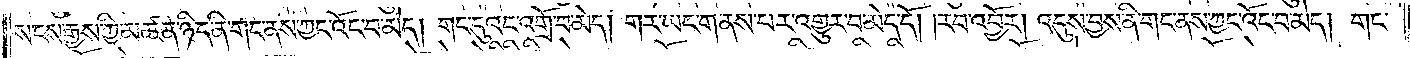སངས་རྒྱས་ཀྱི་མཚན་ཉིད་ནི་གང་ནས་ཀྱང་འོང་བ་མེད། གང་དུའང་འགྲོ་བ་མེད། གར་ཡང་གནས་པར་འགྱུར་བ་མེད་དོ། །རབ་འབྱོར། འདུས་བྱས་ནི་གང་ནས་ཀྱང་འོང་བ་མེད། གང་
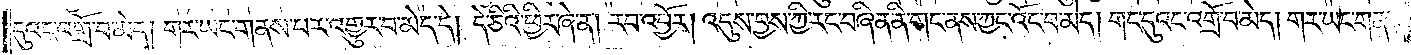དུའང་འགྲོ་བ་མེད། གར་ཡང་གནས་པར་འགྱུར་བ་མེད་དེ། དེ་ཅིའི་ཕྱིར་ཞེ་ན། རབ་འབྱོར། འདུས་བྱས་ཀྱི་རང་བཞིན་ནི་གང་ནས་ཀྱང་འོང་བ་མེད། གང་དུའང་འགྲོ་བ་མེད། གར་ཡང་གནས་
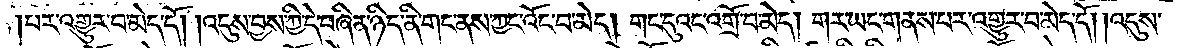པར་འགྱུར་བ་མེད་དོ། །འདུས་བྱས་ཀྱི་དེ་བཞིན་ཉིད་ནི་གང་ནས་ཀྱང་འོང་བ་མེད། གང་དུའང་འགྲོ་བ་མེད། གར་ཡང་གནས་པར་འགྱུར་བ་མེད་དོ། །འདུས་
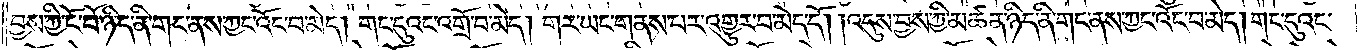བྱས་ཀྱི་ངོ་བོ་ཉིད་ནི་གང་ནས་ཀྱང་འོང་བ་མེད། གང་དུའང་འགྲོ་བ་མེད། གར་ཡང་གནས་པར་འགྱུར་བ་མེད་དོ། །འདུས་བྱས་ཀྱི་མཚན་ཉིད་ནི་གང་ནས་ཀྱང་འོང་བ་མེད། གང་དུའང་
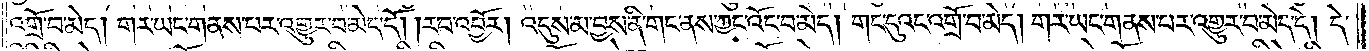འགྲོ་བ་མེད། གར་ཡང་གནས་པར་འགྱུར་བ་མེད་དོ། །རབ་འབྱོར། འདུས་མ་བྱས་ནི་གང་ནས་ཀྱང་འོང་བ་མེད། གང་དུའང་འགྲོ་བ་མེད། གར་ཡང་གནས་པར་འགྱུར་བ་མེད་དོ། །དེ་
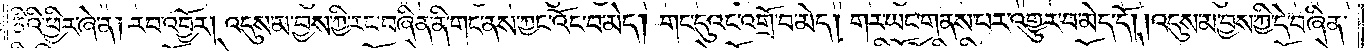ཅིའི་ཕྱིར་ཞེ་ན། རབ་འབྱོར། འདུས་མ་བྱས་ཀྱི་རང་བཞིན་ནི་གང་ནས་ཀྱང་འོང་བ་མེད། གང་དུའང་འགྲོ་བ་མེད། གར་ཡང་གནས་པར་འགྱུར་བ་མེད་དོ། །འདུས་མ་བྱས་ཀྱི་དེ་བཞིན་
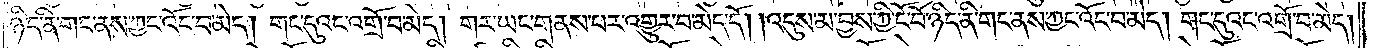ཉིད་ནི་གང་ནས་ཀྱང་འོང་བ་མེད། གང་དུའང་འགྲོ་བ་མེད། གར་ཡང་གནས་པར་འགྱུར་བ་མེད་དོ། །འདུས་མ་བྱས་ཀྱི་ངོ་བོ་ཉིད་ནི་གང་ནས་ཀྱང་འོང་བ་མེད། གང་དུའང་འགྲོ་བ་མེད།
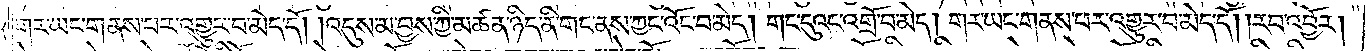གར་ཡང་གནས་པར་འགྱུར་བ་མེད་དོ། །འདུས་མ་བྱས་ཀྱི་མཚན་ཉིད་ནི་གང་ནས་ཀྱང་འོང་བ་མེད། གང་དུའང་འགྲོ་བ་མེད། གར་ཡང་གནས་པར་འགྱུར་བ་མེད་དོ། །རབ་འབྱོར།
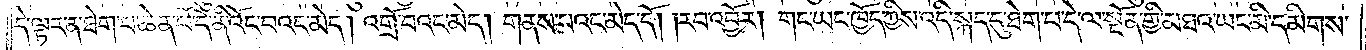དེ་ལྟར་ན་ཐེག་པ་ཆེན་པོ་དེ་ནི་འོང་བའང་མེད། འགྲོ་བའང་མེད། གནས་པའང་མེད་དོ། །རབ་འབྱོར། གང་ཡང་ཁྱོད་ཀྱིས་འདི་སྐད་དུ་ཐེག་པ་དེ་ལ་སྔོན་གྱི་མཐའ་ཡང་མི་དམིགས་
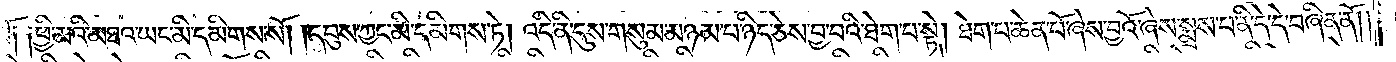སོ། །ཕྱི་མའི་མཐའ་ཡང་མི་དམིགས་སོ། །དབུས་ཀྱང་མི་དམིགས་ཏེ། འདི་ནི་དུས་གསུམ་མཉམ་པ་ཉིད་ཅེས་བྱ་བའི་ཐེག་པ་སྟེ། ཐེག་པ་ཆེན་པོ་ཞེས་བྱའོ་ཞེས་སྨྲས་པ་ནི་དེ་དེ་བཞིན་ནོ། །
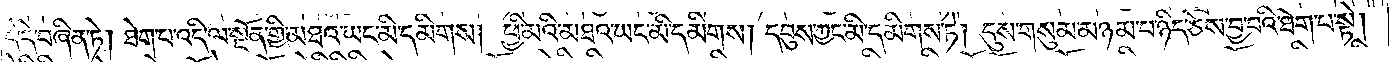དེ་དེ་བཞིན་ཏེ། ཐེག་པ་འདི་ལ་སྔོན་གྱི་མཐའ་ཡང་མི་དམིགས། ཕྱི་མའི་མཐའ་ཡང་མི་དམིགས། དབུས་ཀྱང་མི་དམིགས་ཏེ། དུས་གསུམ་མཉམ་པ་ཉིད་ཅེས་བྱ་བའི་ཐེག་པ་སྟེ།
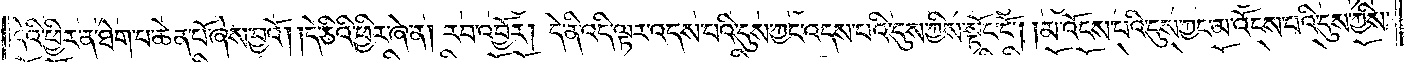དེའི་ཕྱིར་ན་ཐེག་པ་ཆེན་པོ་ཞེས་བྱའོ། །དེ་ཅིའི་ཕྱིར་ཞེ་ན། རབ་འབྱོར། དེ་ནི་འདི་ལྟར་འདས་པའི་དུས་ཀྱང་འདས་པའི་དུས་ཀྱིས་སྟོང་ངོ༌། །མ་འོངས་པའི་དུས་ཀྱང་མ་འོངས་པའི་དུས་ཀྱིས་
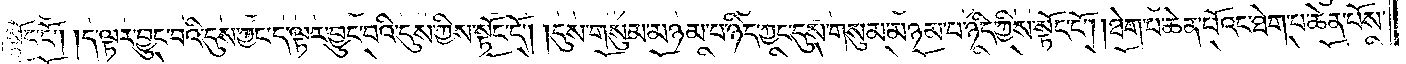སྟོང་ངོ༌། །ད་ལྟར་བྱུང་བའི་དུས་ཀྱང་ད་ལྟར་བྱུང་བའི་དུས་ཀྱིས་སྟོང་ངོ༌། །དུས་གསུམ་མཉམ་པ་ཉིད་ཀྱང་དུས་གསུམ་མཉམ་པ་ཉིད་ཀྱིས་སྟོང་ངོ༌། །ཐེག་པ་ཆེན་པོའང་ཐེག་པ་ཆེན་པོས་
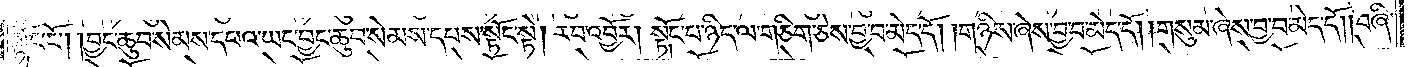སྟོང་ངོ༌། །བྱང་ཆུབ་སེམས་དཔའ་ཡང་བྱང་ཆུབ་སེམས་དཔས་སྟོང་སྟེ། རབ་འབྱོར། སྟོང་པ་ཉིད་ལ་གཅིག་ཅེས་བྱ་བ་མེད་དོ། །གཉིས་ཞེས་བྱ་བ་མེད་དོ། །གསུམ་ཞེས་བྱ་བ་མེད་དོ། །བཞི་
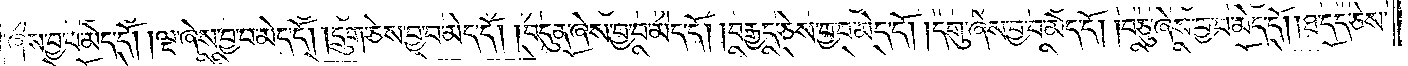ཞེས་བྱ་བ་མེད་དོ། །ལྔ་ཞེས་བྱ་བ་མེད་དོ། །དྲུག་ཅེས་བྱ་བ་མེད་དོ། །བདུན་ཞེས་བྱ་བ་མེད་དོ། །བརྒྱད་ཅེས་བྱ་བ་མེད་དོ། །དགུ་ཞེས་བྱ་བ་མེད་དོ། །བཅུ་ཞེས་བྱ་བ་མེད་དོ། །ཐ་དད་ཅེས་
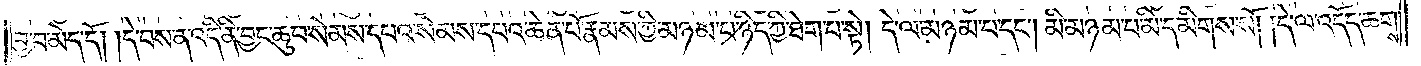བྱ་བ་མེད་དོ། །དེ་བས་ན་འདི་ནི་བྱང་ཆུབ་སེམས་དཔའ་སེམས་དཔའ་ཆེན་པོ་རྣམས་ཀྱི་མཉམ་པ་ཉིད་ཀྱི་ཐེག་པ་སྟེ། དེ་ལ་མཉམ་པ་དང་མི་མཉམ་པ་མི་དམིགས་སོ། །དེ་ལ་འདོད་ཆགས་
